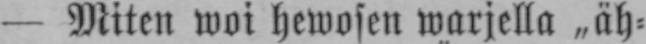— Miten woi hewosen warjella „äh-
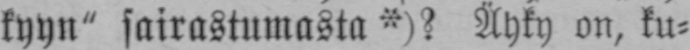kyyn" sairastumasta *)? Ähky on, ku-
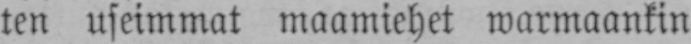ten useimmat maamiehet warmaankin
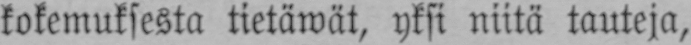kokemuksesta tietäwät, yksi niitä tauteja,
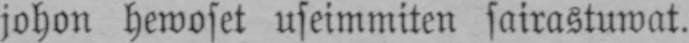johon hewoset useimmiten sairastuwat.
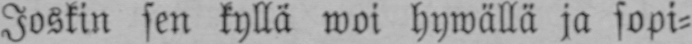Joskin sen kyllä woi hywällä ja sopi-
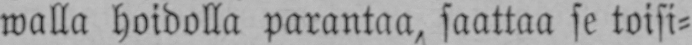walla hoidolla parantaa, saattaa se toisi-
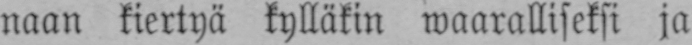naan kiertyä kylläkin wäärälliseksi ja
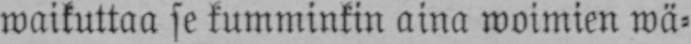waikuttaa se kumminkin aina woimien wä-
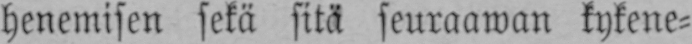henemisen sekä sitä seuraawan kykene-
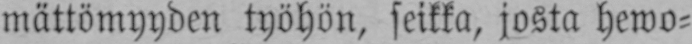wättömyyden työhön, seikka, josta hewo-
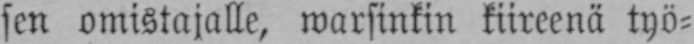sen omistajalle, warsinkin kiireenä työ-
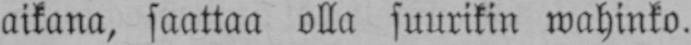aikana, saattaa olla suunkin wahinko.
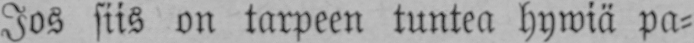Jos siis on tarpeen tuntea hywiä pa-
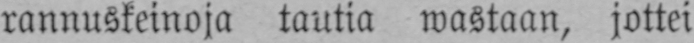rannuskeinoja tautia wastaan, jottei
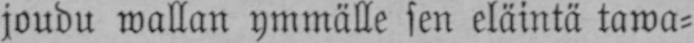joudu wallan ymmälle sen eläintä tawa-
